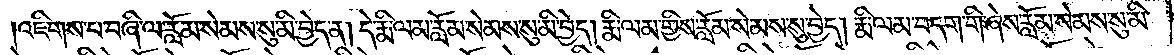འཇིགས་པ་བཞི་ལ་རློམ་སེམས་སུ་མི་བྱེད་ན། དེ་རྨི་ལམ་རློམ་སེམས་སུ་མི་བྱེད། རྨི་ལམ་གྱིས་རློམ་སེམས་སུ་མི་བྱེད། རྨི་ལམ་བདག་གི་ཞེས་རློམ་སེམས་སུ་མི་
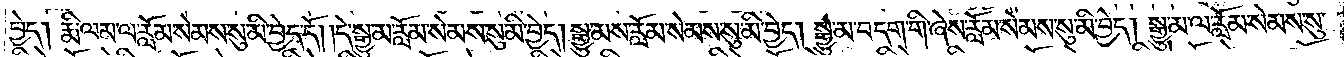བྱེད། རྨི་ལམ་ལ་རློམ་སེམས་སུ་མི་བྱེད་དོ། །དེ་སྒྱུ་མ་རློམ་སེམས་སུ་མི་བྱེད། སྒྱུ་མས་རློམ་སེམས་སུ་མི་བྱེད། སྒྱུ་མ་བདག་གི་ཞེས་རློམ་སེམས་སུ་མི་བྱེད། སྒྱུ་མ་ལ་རློམ་སེམས་སུ་
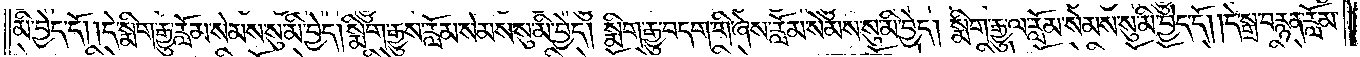མི་བྱེད་དོ། །དེ་སྨིག་རྒྱུ་རློམ་སེམས་སུ་མི་བྱེད། སྨིག་རྒྱུས་རློམ་སེམས་སུ་མི་བྱེད། སྨིག་རྒྱུ་བདག་གི་ཞེས་རློམ་སེམས་སུ་མི་བྱེད། སྨིག་རྒྱུ་ལ་རློམ་སེམས་སུ་མི་བྱེད་དོ། །དེ་སྒྲ་བརྙན་རློམ་
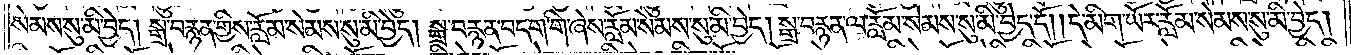སེམས་སུ་མི་བྱེད། སྒྲ་བརྙན་གྱིས་རློམ་སེམས་སུ་མི་བྱེད། སྒྲ་བརྙན་བདག་གི་ཞེས་རློམ་སེམས་སུ་མི་བྱེད། སྒྲ་བརྙན་ལ་རློམ་སེམས་སུ་མི་བྱེད་དོ། །དེ་མིག་ཡོར་རློམ་སེམས་སུ་མི་བྱེད།
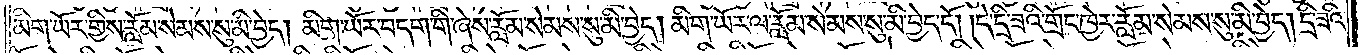མིག་ཡོར་གྱིས་རློམ་སེམས་སུ་མི་བྱེད། མིག་ཡོར་བདག་གི་ཞེས་རློམ་སེམས་སུ་མི་བྱེད། མིག་ཡོར་ལ་རློམ་སེམས་སུ་མི་བྱེད་དོ། །དེ་དྲི་ཟའི་གྲོང་ཁྱེར་རློམ་སེམས་སུ་མི་བྱེད། དྲི་ཟའི་
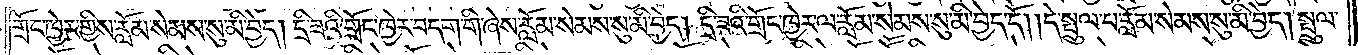གྲོང་ཁྱེར་གྱིས་རློམ་སེམས་སུ་མི་བྱེད། དྲི་ཟའི་གྲོང་ཁྱེར་བདག་གི་ཞེས་རློམ་སེམས་སུ་མི་བྱེད། དྲི་ཟའི་གྲོང་ཁྱེར་ལ་རློམ་སེམས་སུ་མི་བྱེད་དོ། །དེ་སྤྲུལ་པ་རློམ་སེམས་སུ་མི་བྱེད། སྤྲུལ་
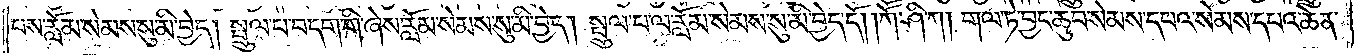པས་རློམ་སེམས་སུ་མི་བྱེད། སྤྲུལ་པ་བདག་གི་ཞེས་རློམ་སེམས་སུ་མི་བྱེད། སྤྲུལ་པ་ལ་རློམ་སེམས་སུ་མི་བྱེད་དོ། །ཀཽ་ཤི་ཀ། གལ་ཏེ་བྱང་ཆུབ་སེམས་དཔའ་སེམས་དཔའ་ཆེན་
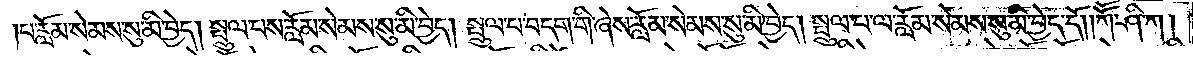པ་རློམ་སེམས་སུ་མི་བྱེད། སྤྲུལ་པས་རློམ་སེམས་སུ་མི་བྱེད། སྤྲུལ་པ་བདག་གི་ཞེས་རློམ་སེམས་སུ་མི་བྱེད། སྤྲུལ་པ་ལ་རློམ་སེམས་སུ་མི་བྱེད་དོ། །ཀཽ་ཤི་ཀ།
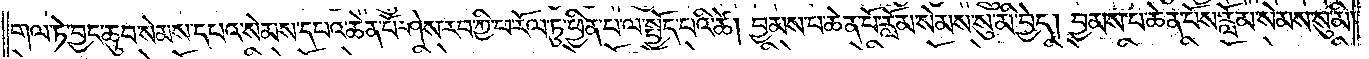གལ་ཏེ་བྱང་ཆུབ་སེམས་དཔའ་སེམས་དཔའ་ཆེན་པོ་ཤེས་རབ་ཀྱི་ཕ་རོལ་ཏུ་ཕྱིན་པ་ལ་སྤྱོད་པའི་ཚེ། བྱམས་པ་ཆེན་པོ་རློམ་སེམས་སུ་མི་བྱེད། བྱམས་པ་ཆེན་པོས་རློམ་སེམས་སུ་མི་
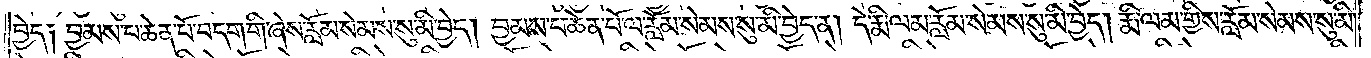བྱེད༑ བྱམས་པ་ཆེན་པོ་བདག་གི་ཞེས་རློམ་སེམས་སུ་མི་བྱེད། བྱམས་པ་ཆེན་པོ་ལ་རློམ་སེམས་སུ་མི་བྱེད་ན། དེ་རྨི་ལམ་རློམ་སེམས་སུ་མི་བྱེད། རྨི་ལམ་གྱིས་རློམ་སེམས་སུ་མི་
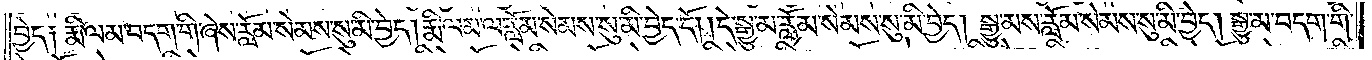བྱེད༑ རྨི་ལམ་བདག་གི་ཞེས་རློམ་སེམས་སུ་མི་བྱེད། རྨི་ལམ་ལ་རློམ་སེམས་སུ་མི་བྱེད་དོ། །དེ་སྒྱུ་མ་རློམ་སེམས་སུ་མི་བྱེད། སྒྱུ་མས་རློམ་སེམས་སུ་མི་བྱེད། སྒྱུ་མ་བདག་གི་
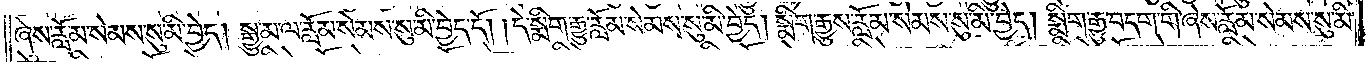ཞེས་རློམ་སེམས་སུ་མི་བྱེད། སྒྱུ་མ་ལ་རློམ་སེམས་སུ་མི་བྱེད་དོ། །དེ་སྨིག་རྒྱུ་རློམ་སེམས་སུ་མི་བྱེད། སྨིག་རྒྱུས་རློམ་སེམས་སུ་མི་བྱེད། སྨིག་རྒྱུ་བདག་གི་ཞེས་རློམ་སེམས་སུ་མི་
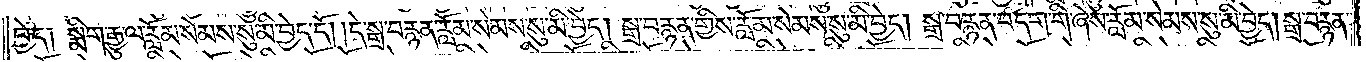བྱེད༑ སྨིག་རྒྱུ་ལ་རློམ་སེམས་སུ་མི་བྱེད་དོ། །དེ་སྒྲ་བརྙན་རློམ་སེམས་སུ་མི་བྱེད། སྒྲ་བརྙན་གྱིས་རློམ་སེམས་སུ་མི་བྱེད། སྒྲ་བརྙན་བདག་གི་ཞེས་རློམ་སེམས་སུ་མི་བྱེད། སྒྲ་བརྙན་
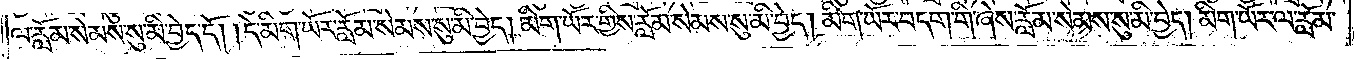ལ་རློམ་སེམས་སུ་མི་བྱེད་དོ། །དེ་མིག་ཡོར་རློམ་སེམས་སུ་མི་བྱེད། མིག་ཡོར་གྱིས་རློམ་སེམས་སུ་མི་བྱེད། མིག་ཡོར་བདག་གི་ཞེས་རློམ་སེམས་སུ་མི་བྱེད། མིག་ཡོར་ལ་རློམ་
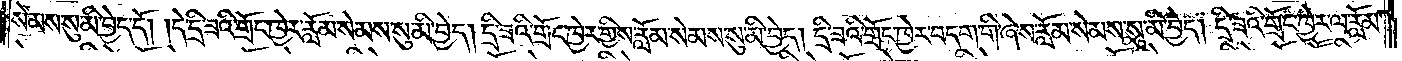སེམས་སུ་མི་བྱེད་དོ། །དེ་དྲི་ཟའི་གྲོང་ཁྱེར་རློམ་སེམས་སུ་མི་བྱེད། དྲི་ཟའི་གྲོང་ཁྱེར་གྱིས་རློམ་སེམས་སུ་མི་བྱེད། དྲི་ཟའི་གྲོང་ཁྱེར་བདག་གི་ཞེས་རློམ་སེམས་སུ་མི་བྱེད། དྲི་ཟའི་གྲོང་ཁྱེར་ལ་རློམ་
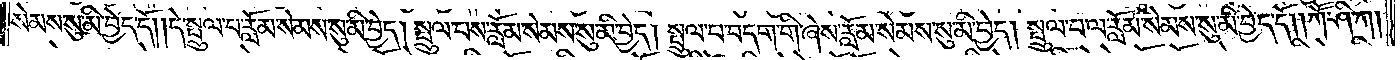སེམས་སུ་མི་བྱེད་དོ། །དེ་སྤྲུལ་པ་རློམ་སེམས་སུ་མི་བྱེད། སྤྲུལ་པས་རློམ་སེམས་སུ་མི་བྱེད། སྤྲུལ་པ་བདག་གི་ཞེས་རློམ་སེམས་སུ་མི་བྱེད། སྤྲུལ་པ་ལ་རློམ་སེམས་སུ་མི་བྱེད་དོ། །ཀཽ་ཤི་ཀ།
